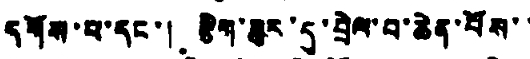དགོས་པ་དང་། རྩིག་ཟུར་དུ་བྲེལ་བ་ཆེན་པོས་་
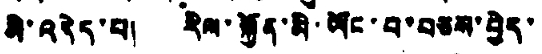མི་འདེད་པ། རིལ་སྐྱོན་མི་ཡོང་བ་བཅས་བྱེད་
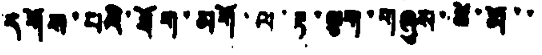དགོས་པའི་ཐོག་མགོ་ལ་རྟ་ལྕག་གཞུས་ཚེ་མོ་་
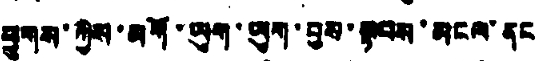ཕྱུགས་ཀྱིས་མགོ་ཡུག་ཡུག་བྱས་སྟབས་མངལ་ནང
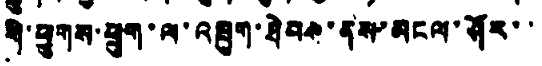གི་ཕྱུགས་ཕྲུག་ལ་འཁྲུག་ཐེབས་ནས་མངལ་ཤོར་་
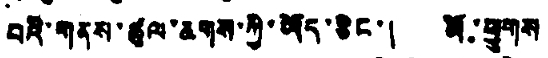པའི་གནས་ཚུལ་ཆགས་ཀྱི་ཡོད་ཅིང་། མོ་ཕྱུགས
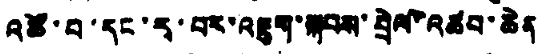འཚོ་བ་དང་རྭ་བར་འཇུག་སྐབས་བྲེལ་འཚབ་ཆེན
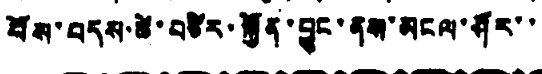པོས་བདས་ཚེ་བཙིར་སྐྱོན་བྱུང་ནས་མངལ་ཤོར་་
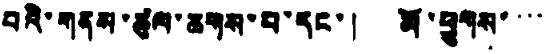བའི་གནས་ཚུལ་ཆགས་བ་དང་། མོ་ཕྱུགས་་་་་
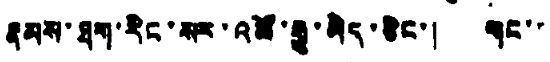རྣམས་ཐག་རིང་སར་འཚོ་རྒྱུ་མེད་ཅིང་། གང་་
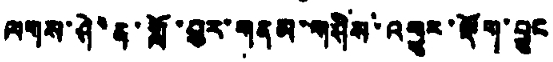ལགས་ཤེ་ན་བློ་བུར་གནམ་གཤིས་འགྱུར་རྡོག་བྱུང
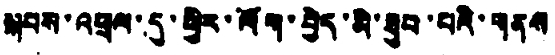སྐབས་འཕྲལ་དུ་ཕྱིར་ལོན་བྱེད་མི་ཐུབ་པའི་གནས
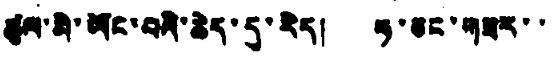ཚུལ་མི་ཡོང་པའི་ཆེད་དུ་རེད། ཧ་ཅང་གཟར་་
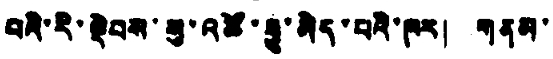པའི་རི་ལྡེབས་སུ་འཚོ་རྒྱུ་མེད་པའི་ཁར། གནམ་
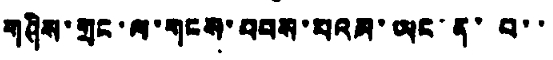གཤིས་གྲང་ལ་གངས་བབས་པའམ་ཡང་ན་བ་་
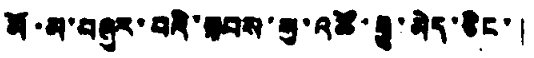མོ་མ་བཞུར་བའི་སྐབས་སུ་འཚོ་རྒྱུ་མེད་ཅིང་།
